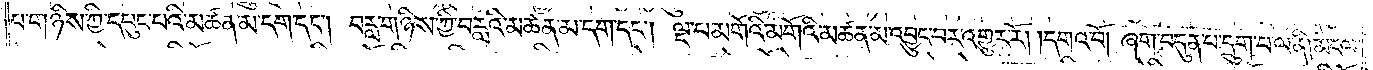པ་གཉིས་ཀྱི་དཔུང་པའི་མཚན་མ་དག་དང༌། བརླ་གཉིས་ཀྱི་བརླའི་མཚན་མ་དག་དང༌། ལྔ་པ་མགོའི་མགོའི་མཚན་མ་འབྱུང་བར་འགྱུར་རོ། །དགའ་བོ། ཞག་བདུན་པ་དྲུག་པ་ལ་ནི། མངལ་
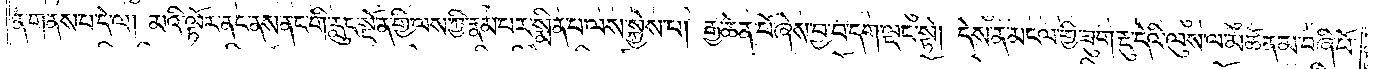ན་གནས་པ་དེ་ལ། མའི་ལྟོར་ནང་ནས་ནང་གི་རླུང་སྔོན་གྱི་ལས་ཀྱི་རྣམ་པར་སྨིན་པ་ལས་སྐྱེས་པ། རྒྱ་ཆེན་པོ་ཞེས་བྱ་བ་དག་ལྡང་སྟེ། དེས་ན་མངལ་གྱི་ཟུག་རྔུ་དེའི་ལུས་ལ་མཚན་མ་བཞི་པོ་
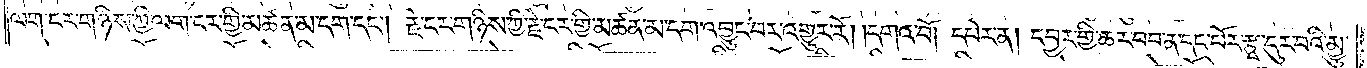ལག་ངར་གཉིས་ཀྱི་ལག་ངར་གྱི་མཚན་མ་དག་དང༌། རྗེ་ངར་གཉིས་ཀྱི་རྗེ་ངར་གྱི་མཚན་མ་དག་འབྱུང་བར་འགྱུར་རོ། །དགའ་བོ། དཔེར་ན། དབྱར་གྱི་ཆར་བབ་ན་དང་པོར་རྩྭ་དུར་བའི་མྱུ་
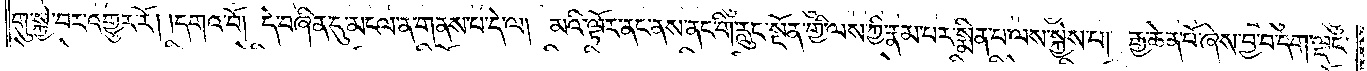གུ་སྐྱེ་བར་འགྱུར་རོ། །དགའ་བོ། དེ་བཞིན་དུ་མངལ་ན་གནས་པ་དེ་ལ། མའི་ལྟོར་ནང་ནས་ནང་གི་རླུང་སྔོན་གྱི་ལས་ཀྱི་རྣམ་པར་སྨིན་པ་ལས་སྐྱེས་པ། རྒྱ་ཆེན་པོ་ཞེས་བྱ་བ་དག་ལྡང་
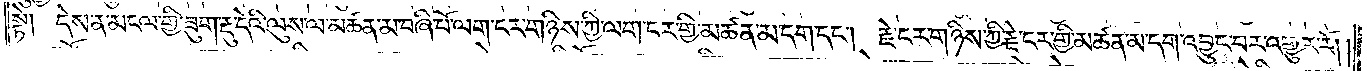སྟེ། དེས་ན་མངལ་གྱི་ཟུག་རྔུ་དེའི་ལུས་ལ་མཚན་མ་བཞི་པོ་ལག་ངར་གཉིས་ཀྱི་ལག་ངར་གྱི་མཚན་མ་དག་དང༌། རྗེ་ངར་གཉིས་ཀྱི་རྗེ་ངར་གྱི་མཚན་མ་དག་འབྱུང་བར་འགྱུར་རོ། །
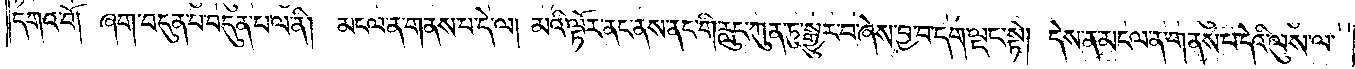དགའ་བོ། ཞག་བདུན་པ་ལ་ནི། མངལ་ན་གནས་པ་དེ་ལ། མའི་ལྟོར་ནང་ནས་ནང་གི་རླུང་ཀུན་ཏུ་སྒྱུར་བ་ཞེས་བྱ་བ་དག་ལྡང་སྟེ། དེས་ན་མངལ་ན་གནས་པ་དེའི་ལུས་ལ་
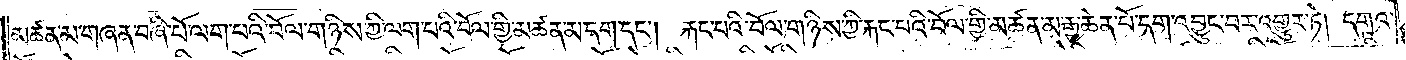མཚན་མ་གཞན་བཞི་པོ་ལག་པའི་བོལ་གཉིས་ཀྱི་ལག་པའི་བོལ་གྱི་མཚན་མ་དག་དང༌། རྐང་པའི་བོལ་གཉིས་ཀྱི་རྐང་པའི་བོལ་གྱི་མཚན་མ་རྒྱ་ཆེན་པོ་དག་འབྱུང་བར་འགྱུར་ཏེ། དགའ་
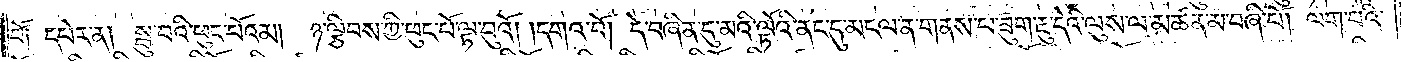བོ། དཔེར་ན། སྦུ་བའི་ཕུང་པོའམ། ཉ་ལྕིབས་ཀྱི་ཕུང་པོ་ལྟ་བུའོ། །དགའ་བོ། དེ་བཞིན་དུ་མའི་ལྟོའི་ནང་དུ་མངལ་ན་གནས་པ་ཟུག་རྔུ་དེའི་ལུས་ལ་མཚན་མ་བཞི་པོ། ལག་པའི་
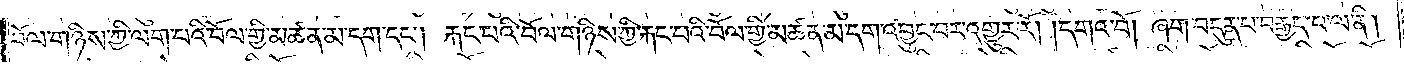བོལ་གཉིས་ཀྱི་ལག་པའི་བོལ་གྱི་མཚན་མ་དག་དང༌། རྐང་པའི་བོལ་གཉིས་ཀྱི་རྐང་པའི་བོལ་གྱི་མཚན་མ་དག་འབྱུང་བར་འགྱུར་རོ། །དགའ་བོ། ཞག་བདུན་པ་བརྒྱད་པ་ལ་ནི།
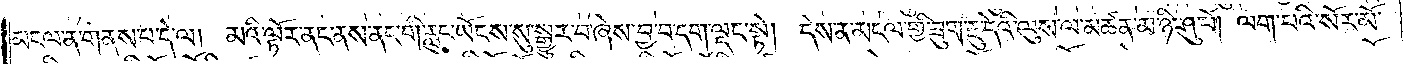མངལ་ན་གནས་པ་དེ་ལ། མའི་ལྟོར་ནང་ནས་ནང་གི་རླུང་ཡོངས་སུ་སྒྱུར་བ་ཞེས་བྱ་བ་དག་ལྡང་སྟེ། དེས་ན་མངལ་གྱི་ཟུག་རྔུ་དེའི་ལུས་ལ་མཚན་མ་ཉི་ཤུ་པོ། ལག་པའི་སོར་མོ་
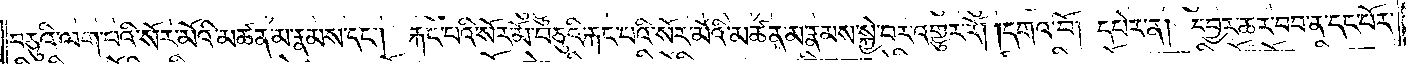བཅུའི་ལག་པའི་སོར་མོའི་མཚན་མ་རྣམས་དང༌། རྐང་པའི་སོར་མོ་བཅུའི་རྐང་པའི་སོར་མོའི་མཚན་མ་རྣམས་སྐྱེ་བར་འགྱུར་རོ། །དགའ་བོ། དཔེར་ན། དབྱར་ཆར་བབ་ན་དང་པོར་
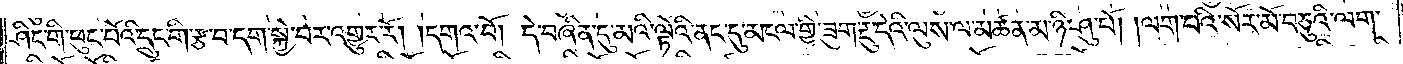ཤིང་གི་ཕུང་པོའི་དྲུང་གི་རྩ་བ་དག་སྐྱེ་བར་འགྱུར་རོ། །དགའ་བོ། དེ་བཞིན་དུ་མའི་ལྟོའི་ནང་དུ་མངལ་གྱི་ཟུག་རྔུ་དེའི་ལུས་ལ་མཚན་མ་ཉི་ཤུ་པོ། །ལག་པའི་སོར་མོ་བཅུའི་ལག་
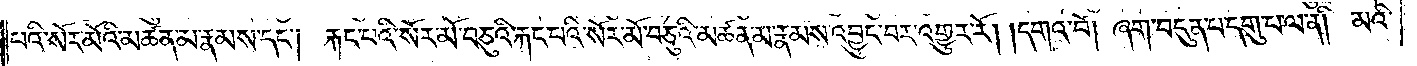པའི་སོར་མོའི་མཚན་མ་རྣམས་དང༌། རྐང་པའི་སོར་མོ་བཅུའི་རྐང་པའི་སོར་མོ་བཅུའི་མཚན་མ་རྣམས་འབྱུང་བར་འགྱུར་རོ། །དགའ་བོ། ཞག་བདུན་པ་དགུ་པ་ལ་ནི། མའི་
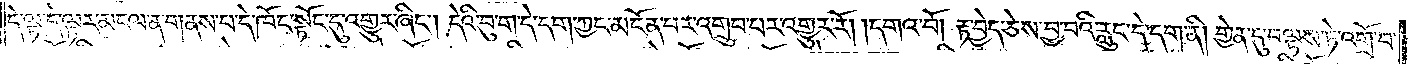དེ་ལྟ་དེ་ལྟར་མངལ་ན་གནས་པ་དེ་ཁོང་སྟོང་དུ་འགྱུར་ཞིང༌། དེའི་བུ་ག་དེ་དག་ཀྱང་མངོན་པར་འགྲུབ་པར་འགྱུར་རོ། །དགའ་བོ། རྟ་བྱེད་ཅེས་བྱ་བའི་རླུང་དེ་དག་ནི། གྱེན་དུ་བལྟས་ཏེ་འགྲོ་བ་
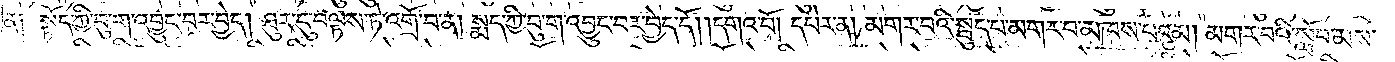ན། སྟོད་ཀྱི་བུ་ག་འབྱུང་བར་བྱེད། ཐུར་དུ་བལྟས་ཏེ་འགྲོ་བ་ན། སྨད་ཀྱི་བུ་ག་འབྱུང་བར་བྱེད་དོ། །དགའ་བོ། དཔེར་ན། མགར་བའི་སྦུད་པ་མགར་བ་མཁས་པའམ། མགར་བའི་སློབ་མས་
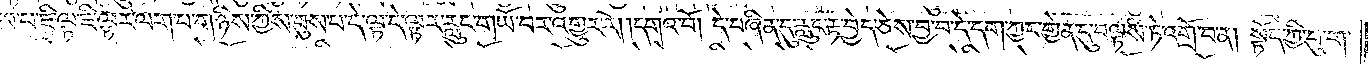བླངས་པ་ཇི་ལྟ་ཇི་ལྟར་ལག་པ་གཉིས་ཀྱིས་བུས་པ་དེ་ལྟ་དེ་ལྟར་རླུང་གཡོ་བར་འགྱུར་རོ། །དགའ་བོ། དེ་བཞིན་དུ་རླུང་རྟ་བྱེད་ཅེས་བྱ་བ་དེ་དག་ཀྱང་གྱེན་དུ་བལྟས་ཏེ་འགྲོ་བ་ན། སྟོད་ཀྱི་བུ་ག་
